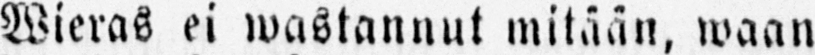Wieras ei mustannut mitään, waan
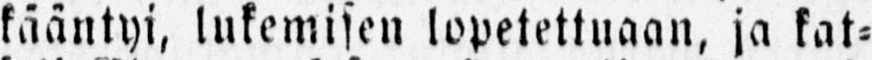kääntyi, lukemisen lopetettuaan, ja kat-
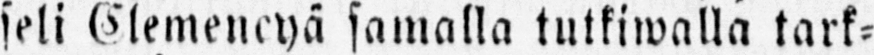seli Clemeneyä samalla tutkiwalla tark-
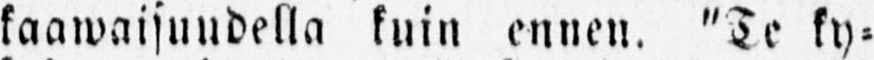kaawaisuudella kuin ennen. "Te ky-
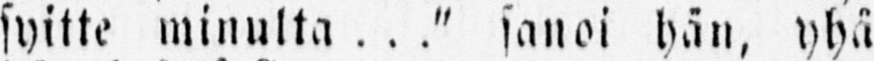syitte minulta . . ." sanoi hän, yhä
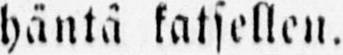häntä katsellen.
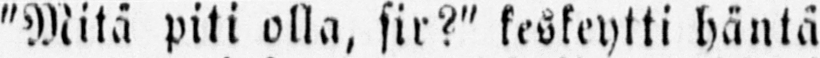"Mitä piti olla, sir?" keskeytti häntä
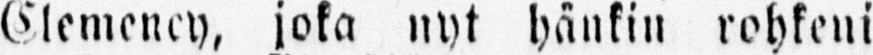Clemency, joka nyt hänkin rohkeni
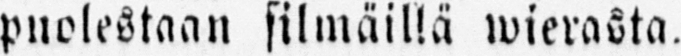puolestaan silmäillä wierasta.
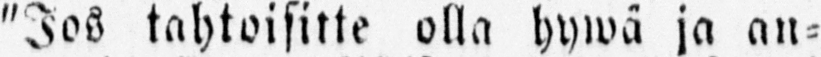"Jos tahtoisitte olla hywä ja an-
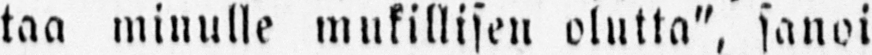taa minulle mukillisen olutta", sanoi
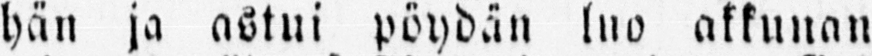hän ja astui pöydän luo akkunan
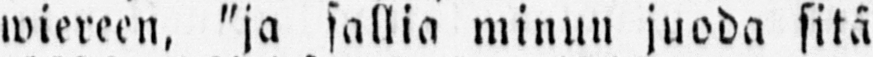wiereen, "ja sallia minun juoda sitä
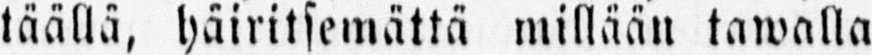täällä, häiritsemättä millään tawalla
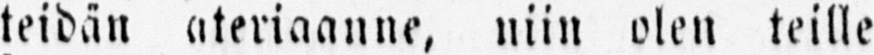teidän ateriaanne, niin olen teille
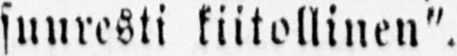suuresti kiitollinen".
